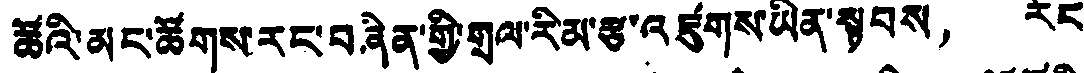ཚོའི་མང་ཚོགས་རང་བཞིན་གྱི་གྲལ་རིམ་རྩ་འཛུགས་ཡིན་སྟབས， རོང་
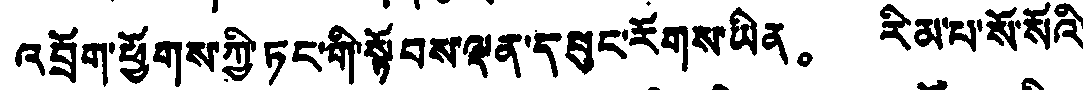འབྲོག་ཕྱོགས་ཀྱི་ཏང་གི་སྟོབས་ལྡན་དཔུང་རོགས་ཡིན。 རིམ་པ་སོ་སོའི་
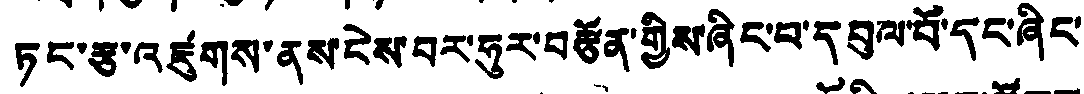ཏང་རྩ་འཛུགས་ནས་ངེས་བར་ཧུར་བརྩོན་གྱིས་ཞིང་བ་དབུལ་བོ་དང་ཞིང་
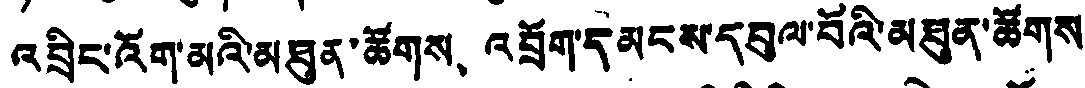འབྲིང་འོག་མའི་མཐུན་ཚོགས、 འབྲོག་དམངས་དབུལ་བོའི་མཐུན་ཚོགས
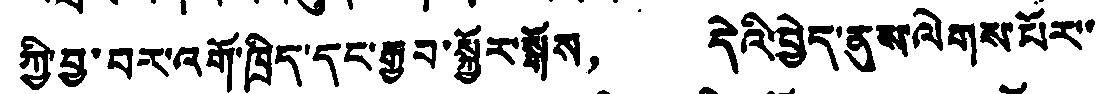ཀྱི་བྱ་བར་འགོ་ཁྲིད་དང་རྒྱབ་སྐྱོར་སྒོས， དེའི་བྱེད་ནུས་ལེགས་པོར་་
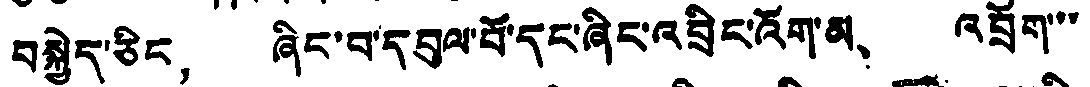བསྐྱེད་ཅིང， ཞིང་བ་དབུལ་བོ་དང་ཞིང་འབྲིང་འོག་མ、 འབྲོག་་
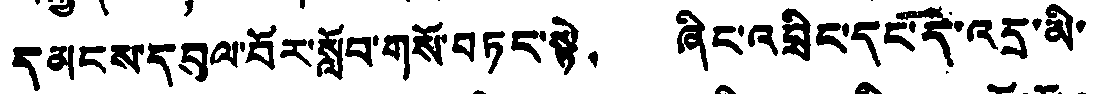དམངས་དབུལ་བོར་སློབ་གསོ་བཏང་སྟེ， ཞིང་འབྲིང་དང་དེ་འདྲ་མི་
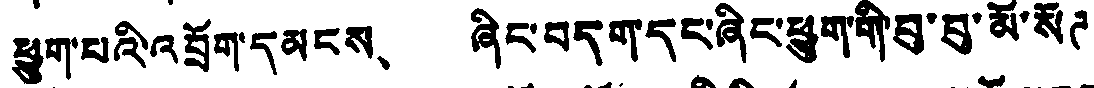ཕྱུག་པའི་འབྲོག་དམངས、 ཞིང་བདག་དང་ཞིང་ཕྱུག་གི་བུ་བུ་མོ་སོཊ
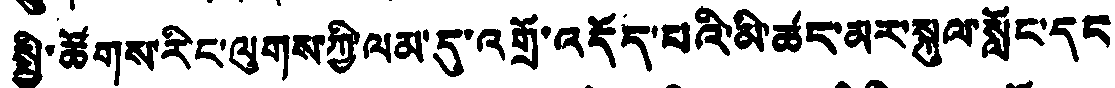སྤྱི་ཚོགས་རིང་ལུགས་ཀྱི་ལམ་དུ་འགྲོ་འདོད་པའི་མི་ཚད་མར་སྐུལ་སློང་དང་
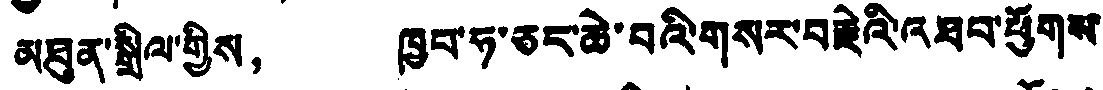མཐུན་སྒྲིལ་གྱིས， ཁྱབ་ཧ་ཅང་ཆེ་བའི་གསར་བརྗེའི་འཐབ་ཕྱོགས་
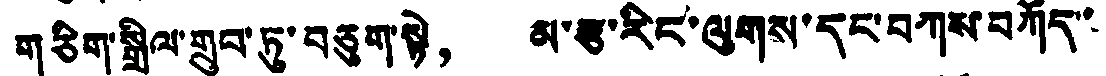གཅིག་སྒྲིལ་གྲུབ་ཏུ་བཅུག་སྟེ， མ་རྩ་རིང་ལུགས་དང་བཀས་བཀོད་་
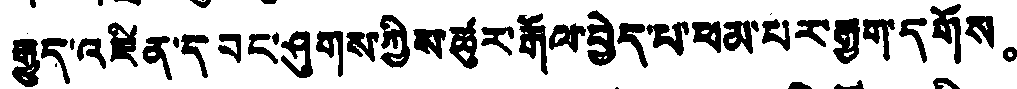རྒྱུད་འཛིན་དབང་ཤུགས་ཀྱིས་ཚུར་རྒོལ་བྱེད་པ་ཕམ་པར་རྒྱག་དགོས。
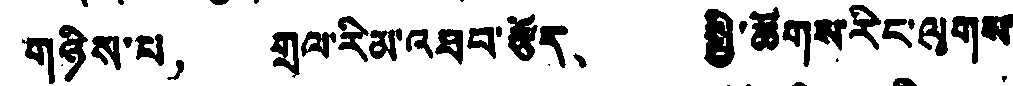གཉིས་པ， གྲལ་རིམ་འཐབ་རྩོད、 སྤྱི་ཚོགས་རིང་ལུགས་
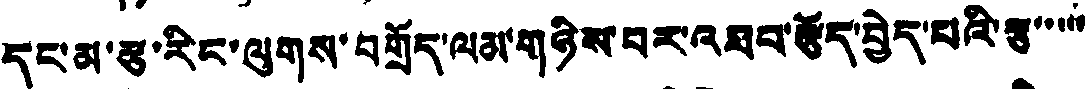དང་མ་རྩ་རིང་ལུགས་བགྲོད་ལམ་གཉིས་པར་འཐབ་རྩོད་བྱེད་པའི་རྩ་་་་་
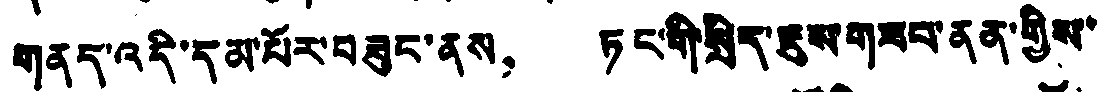གནད་འདི་དམ་པོར་བཟུང་ནས， ཏང་གི་སྲིད་ཇུས་གཟབ་ནན་གྱིས་
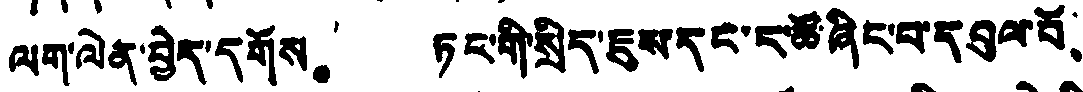ལག་ལེན་བྱེད་དགོས。 ཏང་གི་སྲིད་ཇུས་དང་ང་ཚོ་ཞིང་པ་དབུལ་པོ、
